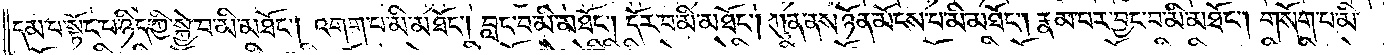དམ་པ་སྟོང་པ་ཉིད་ཀྱི་སྐྱེ་བ་མི་མཐོང༌། འགག་པ་མི་མཐོང༌། བླང་བ་མི་མཐོང༌། དོར་བ་མི་མཐོང༌། ཀུན་ནས་ཉོན་མོངས་པ་མི་མཐོང༌། རྣམ་པར་བྱང་བ་མི་མཐོང༌། གསོག་པ་མི་
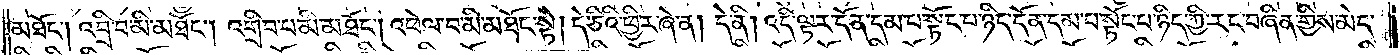མཐོང༌། འབྲི་བ་མི་མཐོང༌། འགྲིབ་པ་མི་མཐོང༌། འཕེལ་བ་མི་མཐོང་སྟེ། དེ་ཅིའི་ཕྱིར་ཞེ་ན། དེ་ནི། འདི་ལྟར་དོན་དམ་པ་སྟོང་པ་ཉིད་དོན་དམ་པ་སྟོང་པ་ཉིད་ཀྱི་རང་བཞིན་གྱིས་མེད་
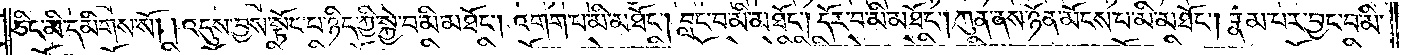ཅིང་མི་དམིགས་སོ། །འདུས་བྱས་སྟོང་པ་ཉིད་ཀྱི་སྐྱེ་བ་མི་མཐོང༌། འགག་པ་མི་མཐོང༌། བླང་བ་མི་མཐོང༌། དོར་བ་མི་མཐོང༌། ཀུན་ནས་ཉོན་མོངས་པ་མི་མཐོང༌། རྣམ་པར་བྱང་བ་མི་
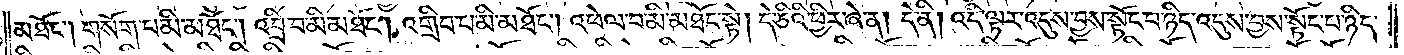མཐོང༌། གསོག་པ་མི་མཐོང༌། འབྲི་བ་མི་མཐོང༌། འགྲིབ་པ་མི་མཐོང༌། འཕེལ་བ་མི་མཐོང་སྟེ། དེ་ཅིའི་ཕྱིར་ཞེ་ན། དེ་ནི། འདི་ལྟར་འདུས་བྱས་སྟོང་པ་ཉིད་འདུས་བྱས་སྟོང་པ་ཉིད་
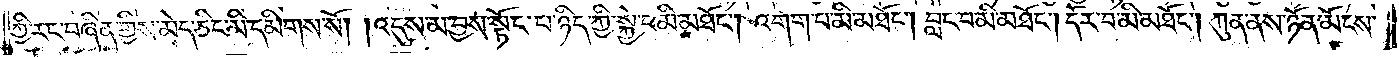ཀྱི་རང་བཞིན་གྱིས་མེད་ཅིང་མི་དམིགས་སོ། །འདུས་མ་བྱས་སྟོང་པ་ཉིད་ཀྱི་སྐྱེ་བ་མི་མཐོང༌། འགག་པ་མི་མཐོང༌། བླང་བ་མི་མཐོང༌། དོར་བ་མི་མཐོང༌། ཀུན་ནས་ཉོན་མོངས་
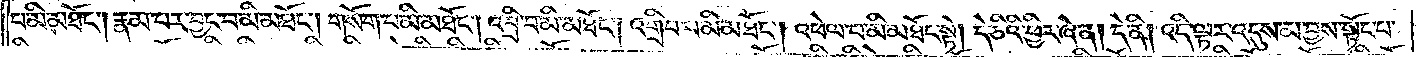པ་མི་མཐོང༌། རྣམ་པར་བྱང་བ་མི་མཐོང༌། གསོག་པ་མི་མཐོང༌། འབྲི་བ་མི་མཐོང༌། འགྲིབ་པ་མི་མཐོང༌། འཕེལ་བ་མི་མཐོང་སྟེ། དེ་ཅིའི་ཕྱིར་ཞེ་ན། དེ་ནི། འདི་ལྟར་འདུས་མ་བྱས་སྟོང་པ་
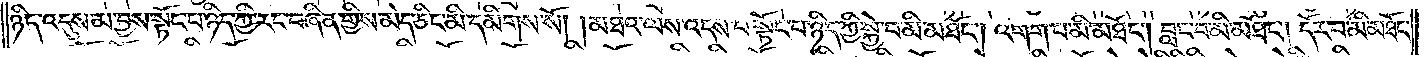ཉིད་འདུས་མ་བྱས་སྟོང་པ་ཉིད་ཀྱི་རང་བཞིན་གྱིས་མེད་ཅིང་མི་དམིགས་སོ། །མཐའ་ལས་འདས་པ་སྟོང་པ་ཉིད་ཀྱི་སྐྱེ་བ་མི་མཐོང༌། འགག་པ་མི་མཐོང༌། བླང་བ་མི་མཐོང༌། དོར་བ་མི་མཐོང༌།
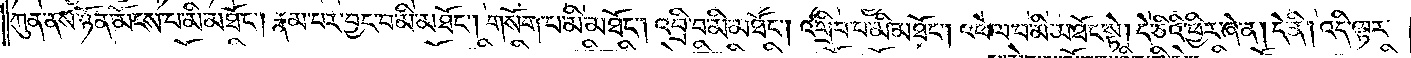ཀུན་ནས་ཉོན་མོངས་པ་མི་མཐོང༌། རྣམ་པར་བྱང་བ་མི་མཐོང༌། གསོག་པ་མི་མཐོང༌། འབྲི་བ་མི་མཐོང༌། འགྲིབ་པ་མི་མཐོང༌། འཕེལ་བ་མི་མཐོང་སྟེ། དེ་ཅིའི་ཕྱིར་ཞེ་ན། དེ་ནི། འདི་ལྟར་
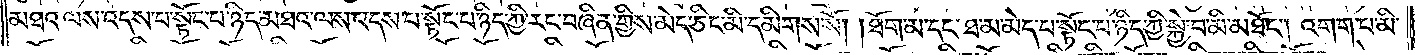མཐའ་ལས་འདས་པ་སྟོང་པ་ཉིད་མཐའ་ལས་འདས་པ་སྟོང་པ་ཉིད་ཀྱི་རང་བཞིན་གྱིས་མེད་ཅིང་མི་དམིགས་སོ། །ཐོག་མ་དང་ཐ་མ་མེད་པ་སྟོང་པ་ཉིད་ཀྱི་སྐྱེ་བ་མི་མཐོང༌། འགག་པ་མི་
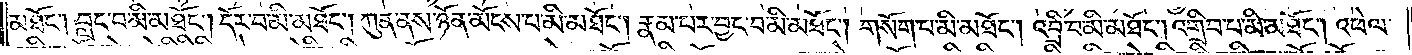མཐོང༌། བླང་བ་མི་མཐོང༌། དོར་བ་མི་མཐོང༌། ཀུན་ནས་ཉོན་མོངས་པ་མི་མཐོང༌། རྣམ་པར་བྱང་བ་མི་མཐོང༌། གསོག་པ་མི་མཐོང༌། འབྲི་བ་མི་མཐོང༌། འགྲིབ་པ་མི་མཐོང༌། འཕེལ་
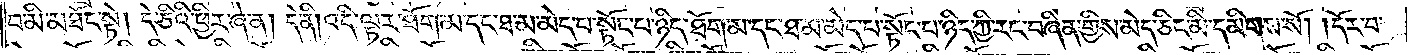བ་མི་མཐོང་སྟེ། དེ་ཅིའི་ཕྱིར་ཞེ་ན། དེ་ནི། འདི་ལྟར་ཐོག་མ་དང་ཐ་མ་མེད་པ་སྟོང་པ་ཉིད་ཐོག་མ་དང་ཐ་མ་མེད་པ་སྟོང་པ་ཉིད་ཀྱི་རང་བཞིན་གྱིས་མེད་ཅིང་མི་དམིགས་སོ། །དོར་བ་
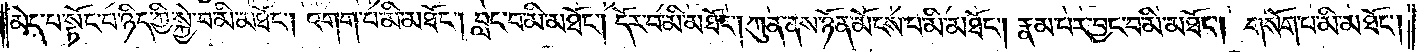མེད་པ་སྟོང་པ་ཉིད་ཀྱི་སྐྱེ་བ་མི་མཐོང༌། འགག་པ་མི་མཐོང༌། བླང་བ་མི་མཐོང༌། དོར་བ་མི་མཐོང༌། ཀུན་ནས་ཉོན་མོངས་པ་མི་མཐོང༌། རྣམ་པར་བྱང་བ་མི་མཐོང༌། གསོག་པ་མི་མཐོང༌།
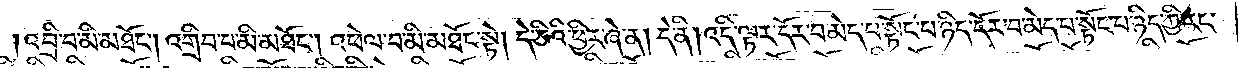འབྲི་བ་མི་མཐོང༌། འགྲིབ་པ་མི་མཐོང༌། འཕེལ་བ་མི་མཐོང་སྟེ། དེ་ཅིའི་ཕྱིར་ཞེ་ན། དེ་ནི། འདི་ལྟར་དོར་བ་མེད་པ་སྟོང་པ་ཉིད་དོར་བ་མེད་པ་སྟོང་པ་ཉིད་ཀྱི་རང་
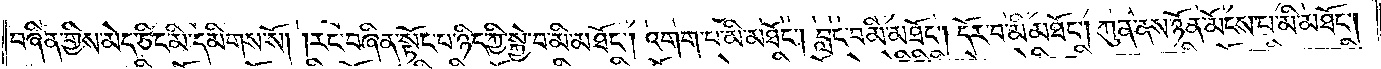བཞིན་གྱིས་མེད་ཅིང་མི་དམིགས་སོ། །རང་བཞིན་སྟོང་པ་ཉིད་ཀྱི་སྐྱེ་བ་མི་མཐོང༌། འགག་པ་མི་མཐོང༌། བླང་བ་མི་མཐོང༌། དོར་བ་མི་མཐོང༌། ཀུན་ནས་ཉོན་མོངས་པ་མི་མཐོང༌།
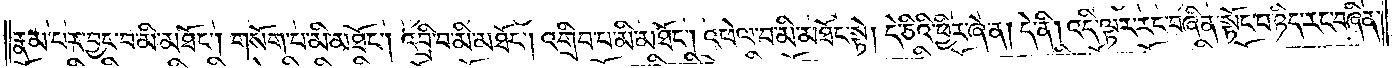རྣམ་པར་བྱང་བ་མི་མཐོང༌། གསོག་པ་མི་མཐོང༌། འབྲི་བ་མི་མཐོང༌། འགྲིབ་པ་མི་མཐོང༌། འཕེལ་བ་མི་མཐོང་སྟེ། དེ་ཅིའི་ཕྱིར་ཞེ་ན། དེ་ནི། འདི་ལྟར་རང་བཞིན་སྟོང་པ་ཉིད་རང་བཞིན་
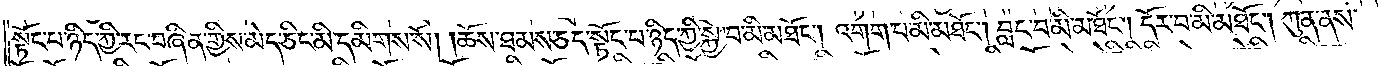སྟོང་པ་ཉིད་ཀྱི་རང་བཞིན་གྱིས་མེད་ཅིང་མི་དམིགས་སོ། །ཆོས་ཐམས་ཅད་སྟོང་པ་ཉིད་ཀྱི་སྐྱེ་བ་མི་མཐོང༌། འགག་པ་མི་མཐོང༌། བླང་བ་མི་མཐོང༌། དོར་བ་མི་མཐོང༌། ཀུན་ནས་
